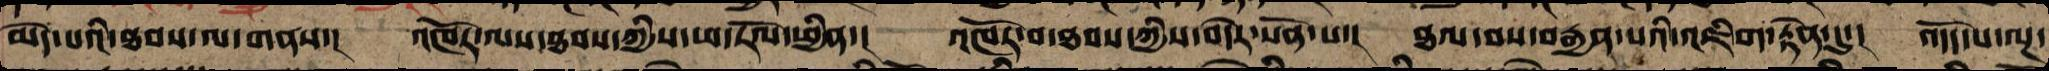མེད་པའི་ཐབས་ལ་གནས་། འཁོར་ལས་ཐབས་ཀྱིས་ཕ་རོལ་ཕྱིན་། འཁོར་བ་ཐབས་ཀྱིས་བདེར་སོན་པ་། ཐལ་བས་བརྒྱན་པའི་འཇིག་རྟེན་དུ་། འདོད་པ་ལྔ་
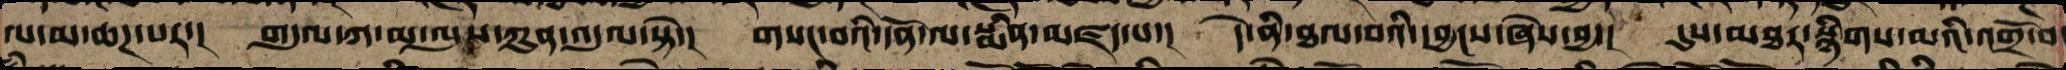ལ་མ་ཆཌ་པར་། གདུལ་དཀའ་མ་ལུས་ཀུན་འདུལ་ཏེ་། གསང་བའི་དོན་ལ་སྨིན་མཛད་པ་། དེ་ནི་ཐལ་བའི་དབྱངས་ཞེས་བྱ་། དུས་མཐར་སྙིགས་མའི་འགྲོ་བ་
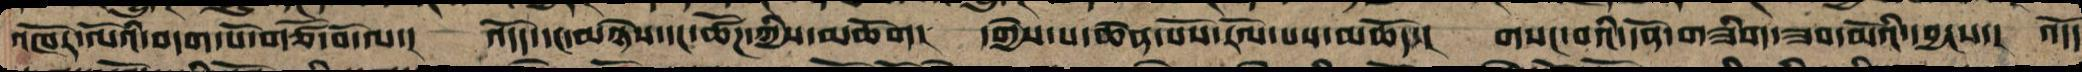འཁོར་ལོའི་བདག་པོ་གཙོ་བོ་ལ་། འདོད་དང་མཉེས་དང་ཚོཌ་ཀྱི་མཆོག། དགྱེས་པ་ཆེན་པོའི་རོལ་པས་མཆོད་། གསང་བའི་དོན་གཟིགས་ཟབ་མོའི་དབྱངས་། འདོད་
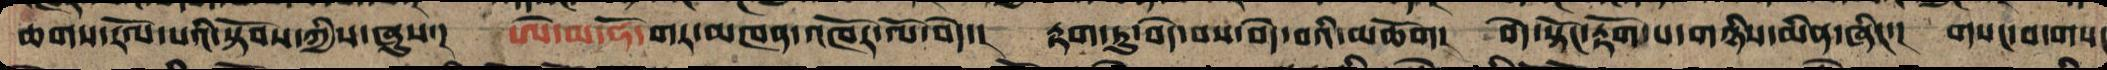ཆགས་རོལ་པའི་སྟོབས་ཀྱིས་ཞུས་། ཨེ་མ་ཧོ་གར་མཁན་འཁོར་ལོ་བདེ་། རྟག་ཏུ་བདེ་བས་བདེ་བའི་མཆོག། བདེ་སྟོང་རྟོག་པ་གཉིས་མིན་ཞིང་། གསང་བ་གསང
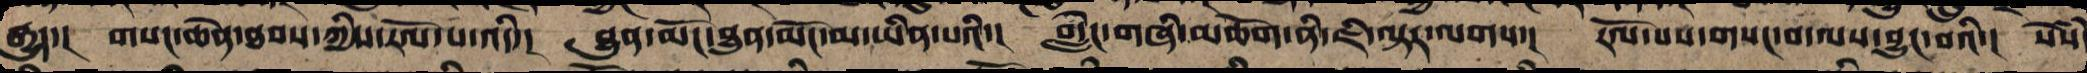རྒྱུད་། གསང་ཆེན་ཐབས་ཀྱིས་རོལ་པ་འདི་། ཐུན་མོང་ཐུན་མོང་མ་ཡིན་པའི་། གླེང་གཞི་མཆོག་ནི་ཇི་ལྟར་ལགས་། རོལ་པའི་གསང་བ་ལས་བྱུང་བའི་། སེཾས་
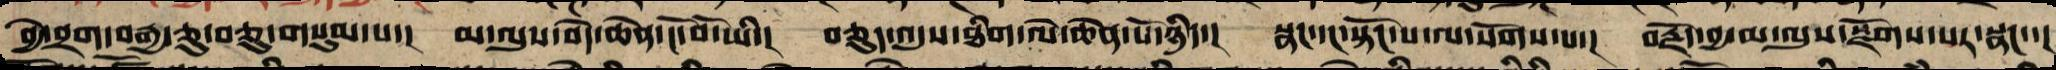བྱེ་ཕྲག་བརྒྱད་ཅུ་བཅུ་གསུམ་པ་། མ་ལུས་བདེ་ཆེན་ངོ་བོ་ཡི་། བཅུད་འདུས་ཐིག་ལེ་ཆེན་པོ་ཉིད་། སྣང་དང་སྟོང་པ་ལ་སོགས་པ་། བརྗོད་བྱ་མ་ལུས་སྫོགས་པར་སྣང་་།
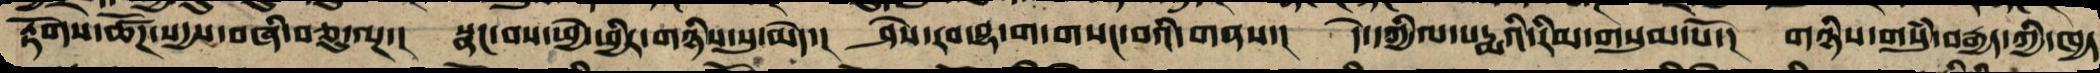རྟོགས་ཚོཌ་སདྱས་བཞི་བཅུ་ལྔ་། སྣང་བས་ཕྱེ་ཕྱིར་གཉིས་སུ་མེད་། ཤེས་རབ་བྷ་ག་གསང་བའི་གནས་། དེ་དཀྱིལ་པདྨའི་རིམ་གསུམ་པོ་། གཉིས་གསུཾ་བརྒྱད་ཀྱི་ཁྱད
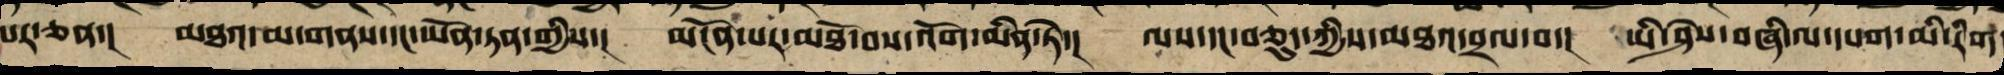པར་ཅན་། མཐའ་མ་གནས་དང་ཡོན་ཏན་གྱིས་། མངོན་པར་མཐོ་བས་འོག་མིན་ཏེ་། ལས་དང་བཅུད་ཀྱིས་མཐའ་བྲལ་བ་། ཡེ་ཤེས་བཞི་ལ་དཔག་མི་རིག
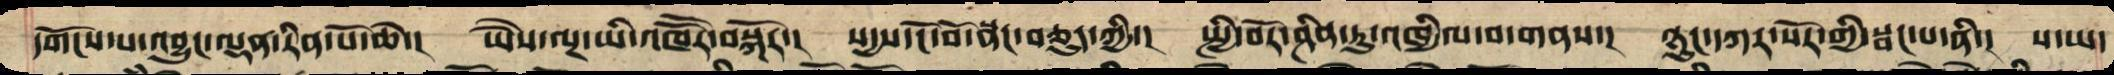དགོངས་པ་འབྱུང་ལྡན་རིན་པོ་ཆེ་། ཡཻས་ལྔ་ཡི་འཁོརོ་བསྐོར་། སདྱས་ངོ་བོ་སྣང་བཅུད་ཀྱི་། སྤྱི་བོར་ཤིན་ཏུ་འཁྱིལ་བ་གནས་། ཉུང་དཀར་སོར་གྱིས་སྦང་པ་ནི་། ས་ཡ་
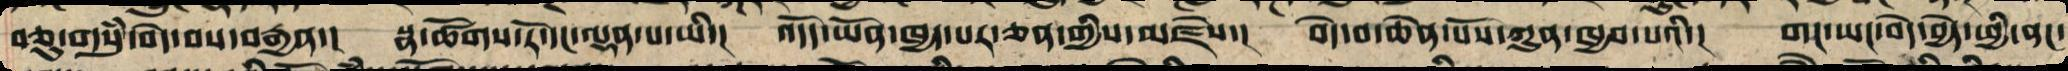བཅུ་གསུཾ་བདེ་བས་བརྒྱན་། སྣ་ཚོགས་རོ་དང་ལྡན་པ་ཡི་། འདོད་ཡོན་ཁྱད་པར་ཅན་གྱིས་མཛེས་། བདེ་བ་ཆེན་པོས་ཀུན་ཁྱབ་པའི་། གང་ཡང་བདེ་བྱེད་ཕྱི་ནང་
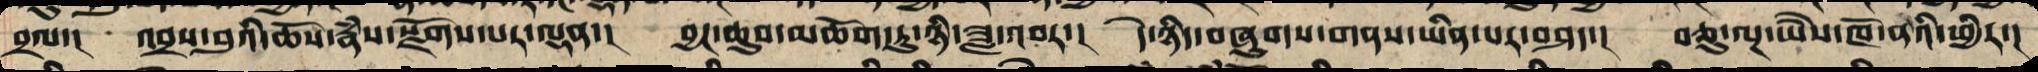བྲལ་། འབྲས་བུའི་ཆོས་རྣཾས་སྫོགས་པར་ལྡན་། བྱང་ཆུབ་མཆོག་ཏུ་ཉི་ཟླ་འབར་། དེ་ཉིད་བཞུགས་གནས་ཡིན་པར་བཤད་། བཅུད་ལྔ་ཡཻས་ཁོ་ནའི་ཕྱིར་།
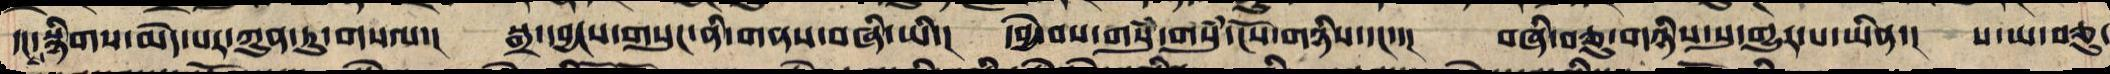དྭངས་སྙིགས་མེད་པར་ཀུན་ཏུ་གསལ་། སྒྲ་དབྱངས་གསུང་གི་གནས་བཞི་ཡི་། དབྱེ་བས་གསུཾ་གསུཾ་ངོས་གཉིས་དང་་། བཞི་བཅུ་གཉིས་སུ་གྱུར་པ་ཡིན་། ས་ཡ་བཅུ་
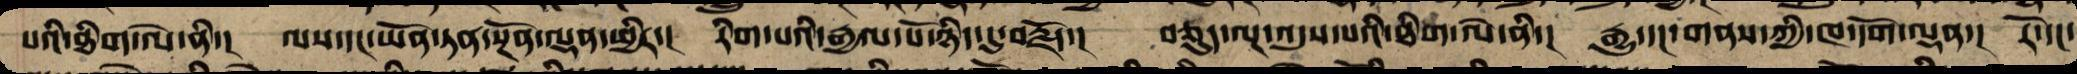པའི་ཐིག་ལེ་ནི་། ལས་དང་ཡོན་ཏན་སྔོན་ལྡན་ཕྱིར་། རིག་པའི་རྒྱལ་པོ་ཉིད་དུ་བརྗོད་། བཅུད་ལྔ་འདུས་པའི་ཐིག་ལེ་ནི་། རྒྱུ་དང་གནས་ཀྱི་ཁ་དོག་ལྡན་། རོ་དང་
